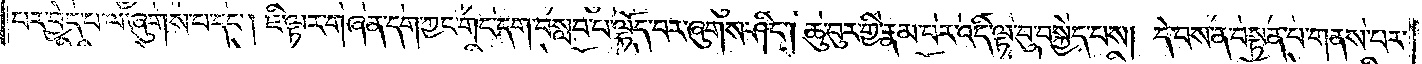པར་བྱེད་པ་ལ་ཞུགས་པ་དང༌། ཇི་ལྟར་གཞན་དག་ཀྱང་གང་དག་བསླབ་པ་ལྷོད་པར་ཞུགས་ཤིང༌། ཆུ་བུར་གྱི་རྣམ་པར་འདི་ལྟ་བུ་བསྐྱེད་པས། དེ་བས་ན་བསྟན་པ་གནས་པར་
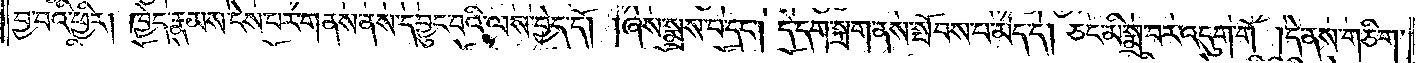བྱ་བའི་ཕྱིར། ཁྱེད་རྣམས་ངེས་པར་གནས་ནས་དབྱུང་བའི་ལས་བྱེད་དོ། །ཞེས་སྨྲས་པ་དང༌། དེ་དག་སྐྲག་ནས་སྤོབས་པ་མེད་དེ། ཅང་མི་སྨྲ་བར་འདུག་གོ །དེ་ནས་གཅིག་
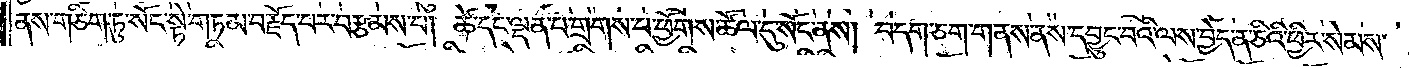ནས་གཅིག་ཏུ་སོང་སྟེ་གཏམ་བརྗོད་པར་བརྩམས་པ། ཚེ་དང་ལྡན་པ་གྲགས་པ་ཕྱོགས་ཚོལ་དུ་སོང་ནས། བདག་ཅག་གནས་ནས་དབྱུང་བའི་ལས་བྱེད་ན་ཅིའི་ཕྱིར་སེམས་
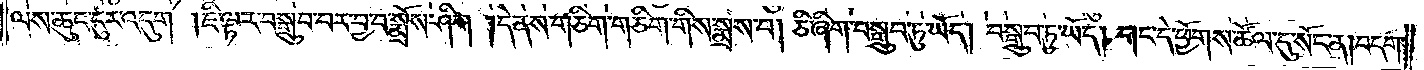ལས་ཆུང་ངུར་འདུག །ཇི་ལྟར་བསྒྲུབ་པར་བྱ་བ་སྨྲོས་ཤིག །དེ་ནས་གཅིག་གཅིག་གིས་སྨྲས་པ། ཅི་ཞིག་བསྒྲུབ་ཏུ་ཡོད། བསྒྲུབ་ཏུ་ཡོད། གང་དེ་ཕྱོགས་ཚོལ་དུ་སོང་ན། བདག་
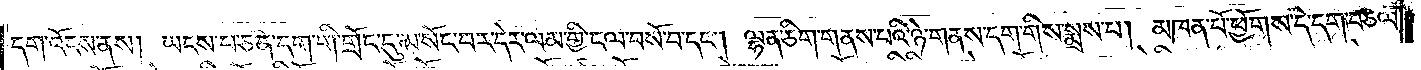དག་འོངས་ནས། ཡངས་པ་ཅན་དག་གི་གྲོང་དུ་མ་སོང་བར་དེར་ལམ་གྱི་ངལ་བསོ་བ་དང༌། ལྷན་ཅིག་གནས་པའི་ཉེ་གནས་དག་གིས་སྨྲས་པ། མཁན་པོ་ཕྱོགས་དེ་དག་བཙལ་
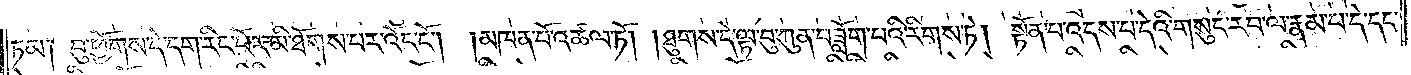ཏམ༑ བུ་ཕྱོགས་དེ་དག་རིང་པོར་མི་ཐོགས་པར་འོང་ངོ༌། །མཁན་པོ་འཚལ་ཏོ། །ཐུགས་དེ་ལྟ་བུ་ཀུན་བཟློག་པའི་རིགས་ཏེ། སྟོན་པ་འདས་པ་དེའི་གསུང་རབ་ལ་རྣམ་པ་དེ་དང་
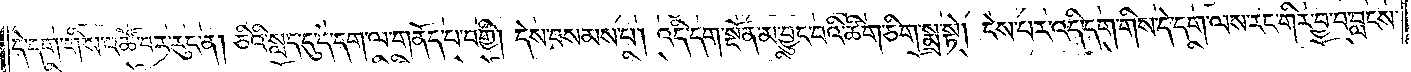དེ་དག་གིས་འཚོ་བར་རུང་ན། ཅིའི་སླད་དུ་དེ་དག་ལ་གནོད་པ་བགྱི། དེས་བསམས་པ། འདི་དག་སྔོན་མ་བྱུང་བའི་ཚིག་ཅིག་སྨྲ་སྟེ། ངེས་པར་འདི་དག་གིས་དེ་དག་ལས་རང་གིར་བྱ་བ་བླངས་
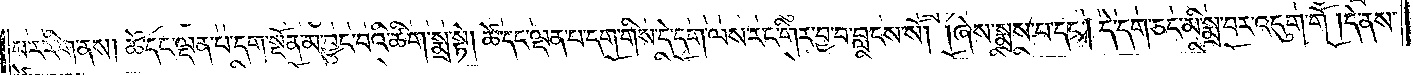པར་རིག་ནས། ཚེ་དང་ལྡན་པ་དག་སྔོན་མ་བྱུང་བའི་ཚིག་སྨྲ་སྟེ། ཚེ་དང་ལྡན་པ་དག་གིས་དེ་དག་ལས་རང་གིར་བྱ་བ་བླངས་སོ། །ཞེས་སྨྲས་པ་དང༌། དེ་དག་ཅང་མི་སྨྲ་བར་འདུག་གོ །དེ་ནས་
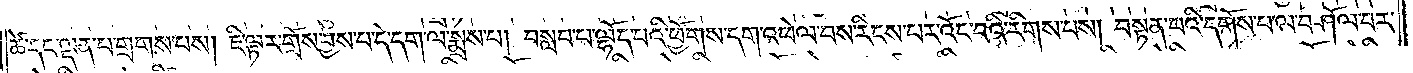ཚེ་དང་ལྡན་པ་གྲགས་པས། ཇི་ལྟར་གྲོས་བྱས་པ་དེ་དག་ལ་སྨྲས་པ། བསླབ་པ་ལྷོད་པའི་ཕྱོགས་དག་འཕེལ་བས་རིངས་པར་འོང་བའི་རིགས་པས། བསྟན་པའི་དགོས་པ་ལ་བཤོལ་བར་
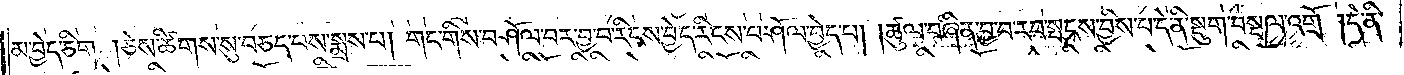མ་བྱེད་ཅིག །ཅེས་ཚིགས་སུ་བཅད་པས་སྨྲས་པ། གང་གིས་བཤོལ་བར་བྱ་བ་རིངས་བྱེད་རིངས་པ་ཤོལ་བྱེད་པ། །ཚུལ་བཞིན་བྱ་བ་རབ་སྤངས་བྱིས་པ་དེ་ནི་སྡུག་བསྔལ་འགྲོ་།དེ་ནི་
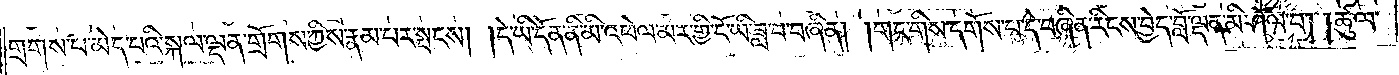གྲགས་པ་མེད་པའི་སྐལ་ལྡན་གྲོགས་ཀྱིས་རྣམ་པར་སྤངས། །དེ་ཡི་དོན་ནི་མི་འཕེལ་མར་གྱི་ངོ་ཡི་ཟླ་བ་བཞིན། །གང་གིས་དགོས་པ་དེ་བཞིན་རིངས་བྱེད་བློ་ལྡན་མི་ཤོལ་བ། །ཚུལ་
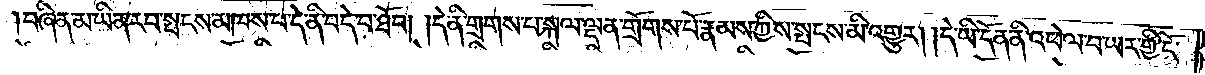།བཞིན་མ་ཡིན་རབ་སྤངས་མཁས་པ་དེ་ནི་བདེ་བ་ཐོབ། །དེ་ནི་གྲགས་པ་སྐལ་ལྡན་གྲོགས་པོ་རྣམས་ཀྱིས་སྤངས་མི་འགྱུར། །དེ་ཡི་དོན་ནི་འཕེལ་བ་ཡར་གྱི་ངོ་
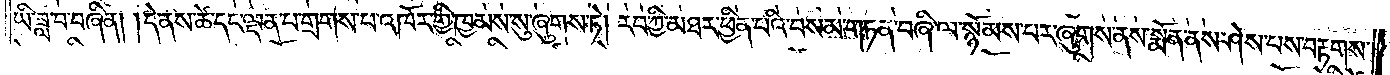ཡི་ཟླ་བ་བཞིན། །དེ་ནས་ཚེ་དང་ལྡན་པ་གྲགས་པ་འཁོར་གྱི་ཁྱམས་སུ་ཞུགས་ཏེ། རབ་ཀྱི་མཐར་ཕྱིན་པའི་བསམ་གཏན་བཞི་ལ་སྙོམས་པར་ཞུགས་ནས་སྨོན་ནས་ཤེས་པས་བརྟགས་
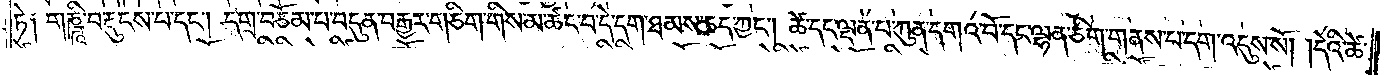ཏེ༑ གཎྜཱི་བརྡུངས་པ་དང༌། དགྲ་བཅོམ་པ་བདུན་བརྒྱར་གཅིག་གིས་མ་ཚང་བ་དེ་དག་ཐམས་ཅད་ཀྱང༌། ཚེ་དང་ལྡན་པ་ཀུན་དགའ་བོ་དང་ལྷན་ཅིག་གནས་པ་དག་འདུས་སོ། །དེའི་ཚེ་
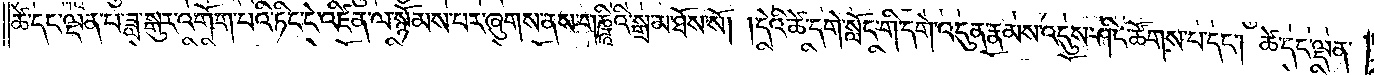ཚེ་དང་ལྡན་པ་ཟླ་སྒུར་འགོག་པའི་ཏིང་ངེ་འཛིན་ལ་སྙོམས་པར་ཞུགས་ནས་གཎྜཱིའི་སྒྲ་མ་ཐོས་སོ། །དེའི་ཚེ་དགེ་སློང་གི་དགེ་འདུན་རྣམས་འདུས་ཤིང་ཚོགས་པ་དང༌། ཚེ་དང་ལྡན་
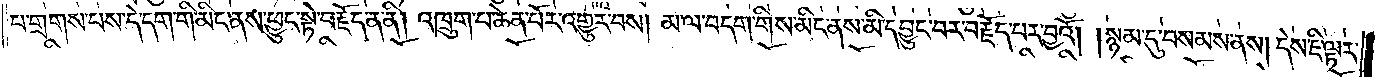པ་གྲགས་པས་དེ་དག་གི་མིང་ནས་ཕྱུང་སྟེ་བརྗོད་ན་ནི། འཁྲུག་པ་ཆེན་པོར་འགྱུར་བས། མ་ལ་བདག་གིས་མིང་ནས་མི་དབྱུང་བར་བརྗོད་པར་བྱའོ། །སྙམ་དུ་བསམས་ནས། དེས་ཇི་ལྟར་
